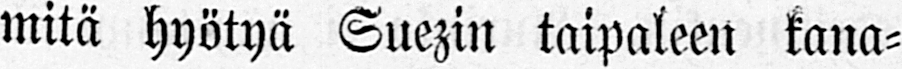mitä hyötyä Suezin taipaleen kana-
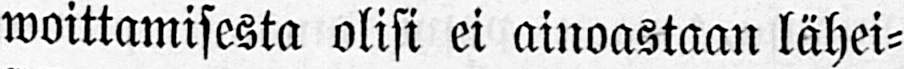woittamisesta olisi ei ainoastaan lähei-
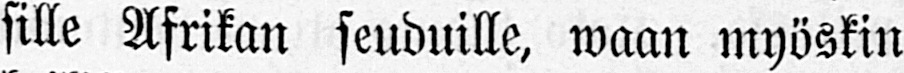sille Afrikan seuduille, waan myöskin
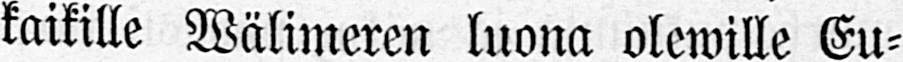kaikille Wälimeren luona olewille Eu-
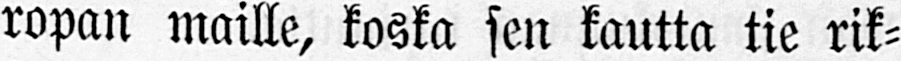ropan maille, koska sen kautta tie rik-
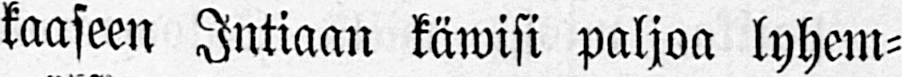kaaseen Intiaan käwisi paljoa lyhem-
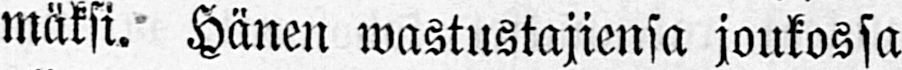mäksi. Hänen wastustajiensa joukossa
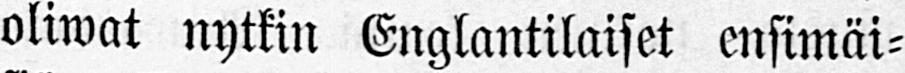oliwat nytkin Englantilaiset ensimäi-
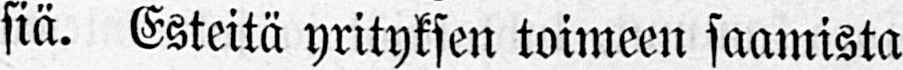siä. Esteitä yrityksen toimeen saamista
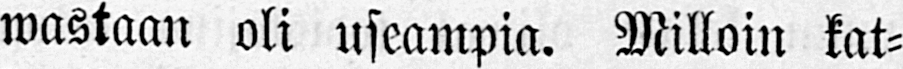wastaan oli useampia. Milloin kat-
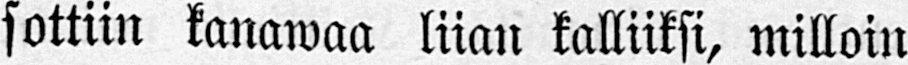sottiin kanawaa liian kalliiksi, milloin
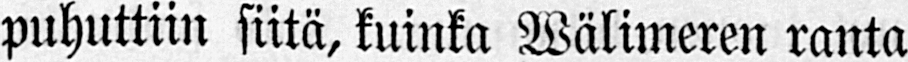puhuttiin siitä, kuinka Wälimeren ranta
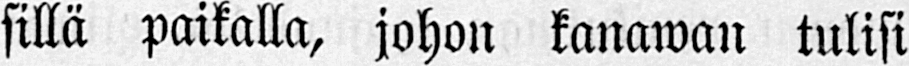sillä paikalla, johon kanawan tulisi
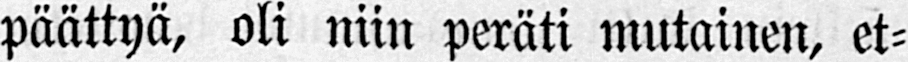päättyä, oli niin peräti mutainen, et-
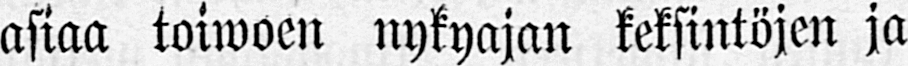asiaa toiwoen nykyajan keksintöjen ja
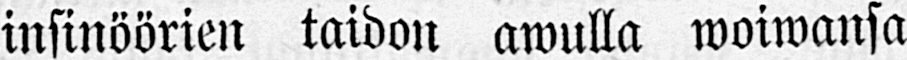insinöörien taidon awulla woiwansa
